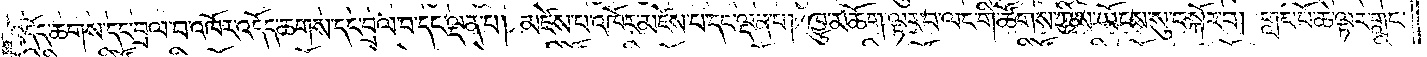འདོད་ཆགས་དང་བྲལ་བ་འཁོར་འདོད་ཆགས་དང་བྲལ་བ་དང་ལྡན་པ། མཛེས་པ་འཁོར་མཛེས་པ་དང་ལྡན་པ། ཁྱུ་མཆོག་ལྟར་བ་ལང་གི་ཚོགས་ཀྱིས་ཡོངས་སུ་བསྐོར་བ། གླང་པོ་ཆེ་ལྟར་གླང་
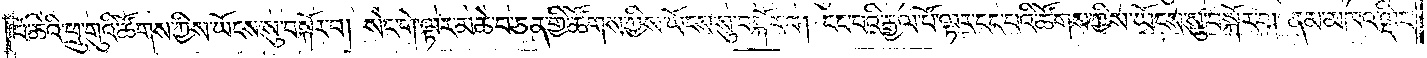པོ་ཆེའི་ཕྲུ་གུའི་ཚོགས་ཀྱིས་ཡོངས་སུ་བསྐོར་བ། སེང་གེ་ལྟར་མཆེ་བ་ཅན་གྱི་ཚོགས་ཀྱིས་ཡོངས་སུ་བསྐོར་བ། ངང་པའི་རྒྱལ་པོ་ལྟར་ངང་པའི་ཚོགས་ཀྱིས་ཡོངས་སུ་བསྐོར་བ། ནམ་མཁའ་ལྡིང་
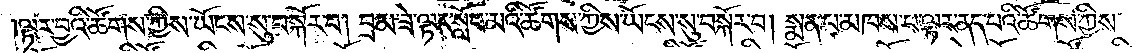ལྟར་བྱའི་ཚོགས་ཀྱིས་ཡོངས་སུ་བསྐོར་བ། བྲམ་ཟེ་ལྟར་སློབ་མའི་ཚོགས་ཀྱིས་ཡོངས་སུ་བསྐོར་བ། སྨན་པ་མཁས་པ་ལྟར་ནད་པའི་ཚོགས་ཀྱིས་
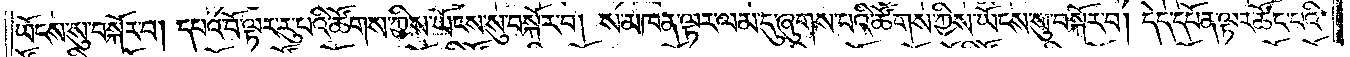ཡོངས་སུ་བསྐོར་བ། དཔའ་བོ་ལྟར་རུ་པའི་ཚོགས་ཀྱིས་ཡོངས་སུ་བསྐོར་བ། ས་མཁན་ལྟར་ལམ་དུ་ཞུགས་པའི་ཚོགས་ཀྱིས་ཡོངས་སུ་བསྐོར་བ། དེད་དཔོན་ལྟར་ཚོང་པའི་
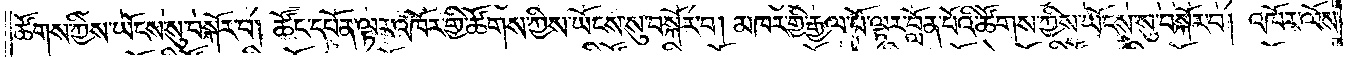ཚོགས་ཀྱིས་ཡོངས་སུ་བསྐོར་བ། ཚོང་དཔོན་ལྟར་འཁོར་གྱི་ཚོགས་ཀྱིས་ཡོངས་སུ་བསྐོར་བ། མཁར་གྱི་རྒྱལ་པོ་ལྟར་བློན་པོའི་ཚོགས་ཀྱིས་ཡོངས་སུ་བསྐོར་བ། འཁོར་ལོས་
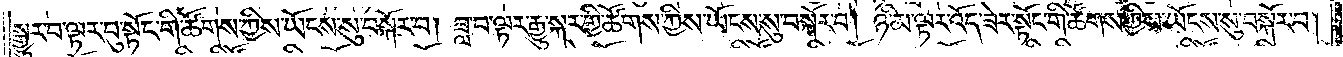སྒྱུར་བ་ལྟར་བུ་སྟོང་གི་ཚོགས་ཀྱིས་ཡོངས་སུ་བསྐོར་བ། ཟླ་བ་ལྟར་རྒྱུ་སྐར་གྱི་ཚོགས་ཀྱིས་ཡོངས་སུ་བསྐོར་བ། ཉི་མ་ལྟར་འོད་ཟེར་སྟོང་གི་ཚོགས་ཀྱིས་ཡོངས་སུ་བསྐོར་བ།
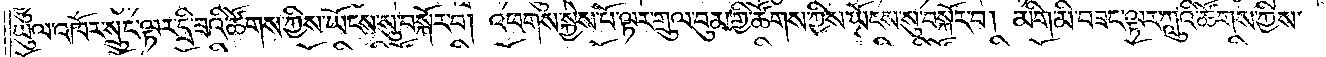ཡུལ་འཁོར་སྲུང་ལྟར་དྲི་ཟའི་ཚོགས་ཀྱིས་ཡོངས་སུ་བསྐོར་བ། འཕགས་སྐྱེས་པོ་ལྟར་གྲུལ་བུམ་གྱི་ཚོགས་ཀྱིས་ཡོངས་སུ་བསྐོར་བ། མིག་མི་བཟང་ལྟར་ཀླུའི་ཚོགས་ཀྱིས་
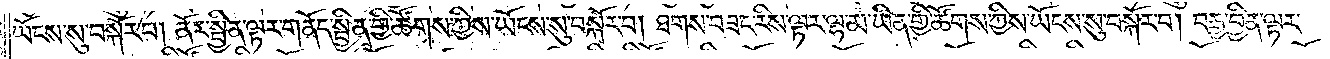ཡོངས་སུ་བསྐོར་བ། ནོར་སྦྱིན་ལྟར་གནོད་སྦྱིན་གྱི་ཚོགས་ཀྱིས་ཡོངས་སུ་བསྐོར་བ། ཐགས་བཟང་རིས་ལྟར་ལྷ་མ་ཡིན་གྱི་ཚོགས་ཀྱིས་ཡོངས་སུ་བསྐོར་བ། བརྒྱ་བྱིན་ལྟར་
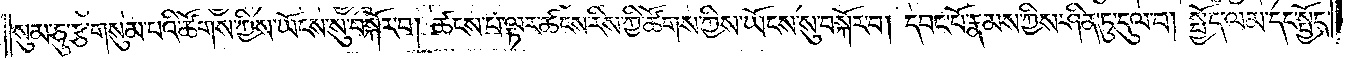སུམ་ཅུ་རྩ་གསུམ་པའི་ཚོགས་ཀྱིས་ཡོངས་སུ་བསྐོར་བ། ཚངས་པ་ལྟར་ཚངས་རིས་ཀྱི་ཚོགས་ཀྱིས་ཡོངས་སུ་བསྐོར་བ། དབང་པོ་རྣམས་ཀྱིས་ཤིན་ཏུ་དུལ་བ། སྤྱོད་ལམ་དང་སྤྱོད་
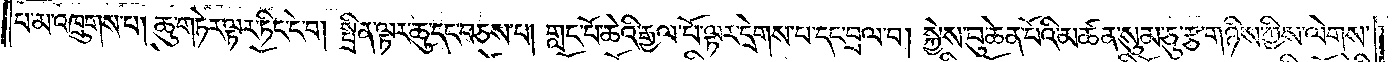པ་མ་འཁྲུགས་པ། ཆུ་གཏེར་ལྟར་ཏིང་ངེ་བ། སྤྲིན་ལྟར་ཆུ་དང་བཅས་པ། གླང་པོ་ཆེའི་རྒྱལ་པོ་ལྟར་དྲེགས་པ་དང་བྲལ་བ། སྐྱེས་བུ་ཆེན་པོའི་མཚན་སུམ་ཅུ་རྩ་གཉིས་ཀྱིས་ལེགས་
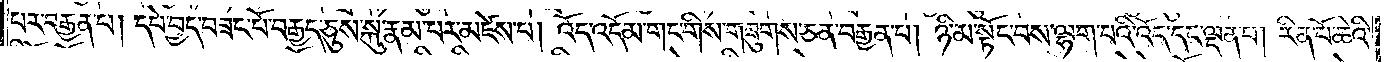པར་བརྒྱན་པ། དཔེ་བྱད་བཟང་པོ་བརྒྱད་ཅུས་སྐུ་རྣམ་པར་མཛེས་པ། འོད་འདོམ་གང་གིས་གཟུགས་ཅན་བརྒྱན་པ། ཉི་མ་སྟོང་བས་ལྷག་པའི་འོད་དང་ལྡན་པ། རིན་པོ་ཆེའི་
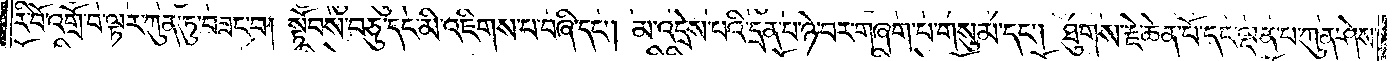རི་བོ་འགྲོ་བ་ལྟར་ཀུན་ཏུ་བཟང་བ། སྟོབས་བཅུ་དང་མི་འཇིགས་པ་བཞི་དང༌། མ་འདྲེས་པའི་དྲན་པ་ཉེ་བར་གཞག་པ་གསུམ་དང༌། ཐུགས་རྗེ་ཆེན་པོ་དང་ལྡན་པ་ཀུན་ཤེས་
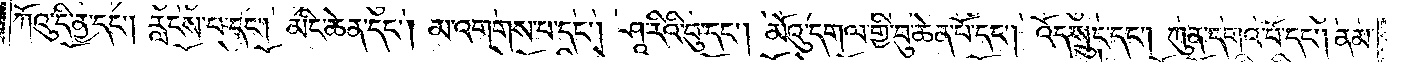ཀོའུ་དི་ནྱ་དང༌། རླངས་པ་དང༌། མིང་ཆེན་དང༌། མ་འགགས་པ་དང༌། ཤཱ་རིའི་བུ་དང༌། མོའུ་དགལ་གྱི་བུ་ཆེན་པོ་དང༌། འོད་སྲུང་དང༌། ཀུན་དགའ་བོ་དང༌། ནམ་
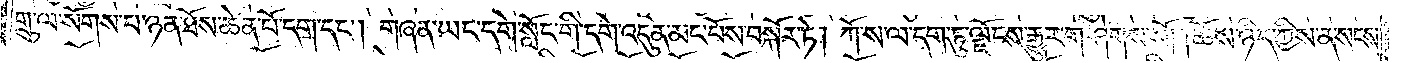གྲུ་ལ་སོགས་པ་ཉན་ཐོས་ཆེན་པོ་དག་དང༌། གཞན་ཡང་དགེ་སློང་གི་དགེ་འདུན་མང་པོས་བསྐོར་ཏེ། ཀོ་ས་ལ་དག་ཏུ་ལྗོངས་རྒྱུར་གཤེགས་སོ། །ཆོས་ཉིད་ཀྱིས་ན་སངས་
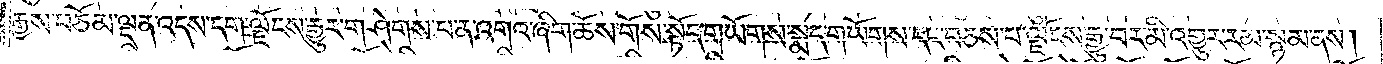རྒྱས་བཅོམ་ལྡན་འདས་དག་ལྗོངས་རྒྱུར་གཤེགས་པ་ན་འགའ་ཞིག་ཆོས་གོས་སྟོད་གཡོགས་སྨད་གཡོགས་དང་བཅས་པ་ལྗོངས་རྒྱུ་བར་མི་འགྱུར་རམ་སྙམ་ནས།
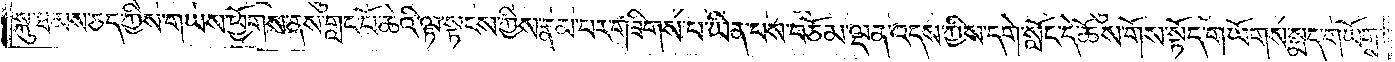སྐུ་ཐམས་ཅད་ཀྱིས་གཡས་ཕྱོགས་ནས་གླང་པོ་ཆེའི་ལྟ་སྟངས་ཀྱིས་རྣམ་པར་གཟིགས་པ་ཡིན་པས་བཅོམ་ལྡན་འདས་ཀྱིས་དགེ་སློང་དེ་ཆོས་གོས་སྟོད་གཡོགས་སྨད་གཡོགས་
